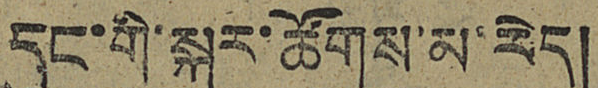དུང་གི་སྐར་ཚོགས་མ་རེད།
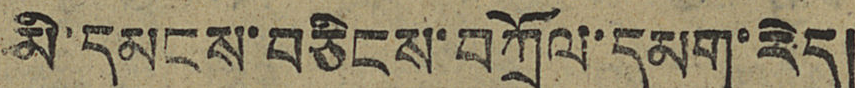མི་དམངས་བཅིངས་བཀྲོལ་དམག་རེད།
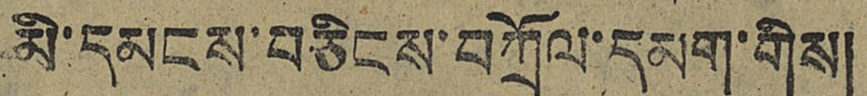མི་དམངས་བཅིངས་བཀྲོལ་དམག་གིས།
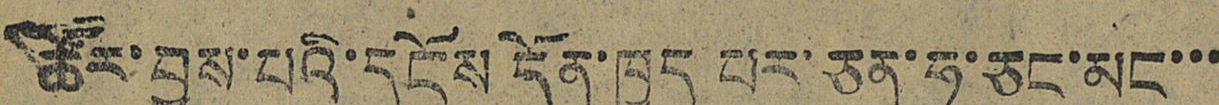ཚོར་བྱས་པའི་དངོས དོན་ཁྱད པར་ཅན་ཧ་ཅང་མང་་་
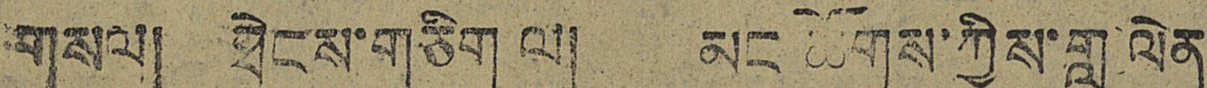གསལ། ཐེངས་གཅིག ལ། མང ཚོགས་ཀྱིས་གླུ ལེན
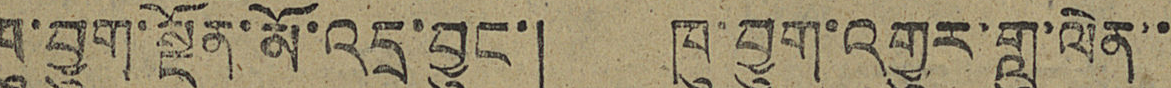ཁུ་བྱུག་སྔོན་མོ་འདྲ་བྱུང་། ཁུ་བྱུག་འགྱུར་གླུ་ལེན་་
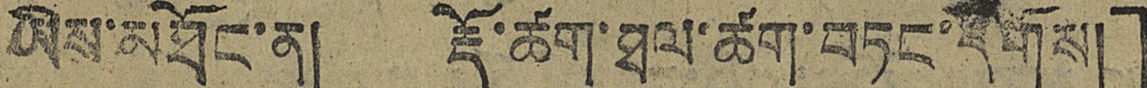ཡིས་མཐོང་ན། རྡོ་ཚག་ཐལ་ཚག་བཏང་དགོས།」
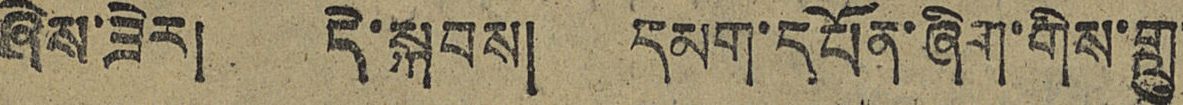ཞེས་ཟེར། དེ་སྐབས། དམག་དཔོན་ཞིག་གིས་གླུ་
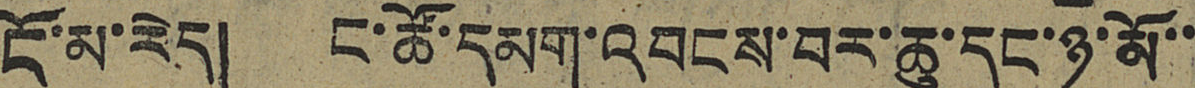ངོ་མ་རེད། ང་ཚོ་དམག་འབངས་བར་ཆུ་དང་ཉ་མོ་་
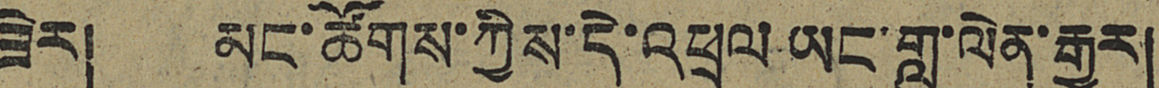ཟེར། མང་ཚོགས་ཀྱིས་དེ་འཕྲལ ཡང་གླུ་ལེན་རྒྱུར།
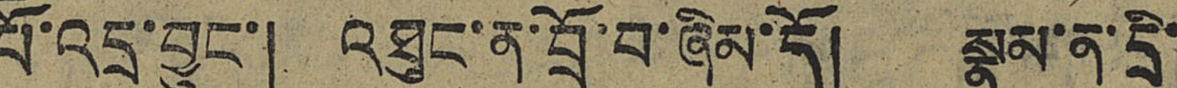པོ་འདྲ་བྱུང་། འཐུང་ན་བྲོ་བ་ཞིམ་དོ། སྣུམ་ན་དྲི་
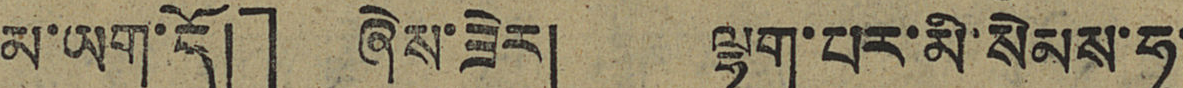མ་ཡག་དོ།」 ཞེས་ཟེར། ལྷག་པར་མི་སེམས་ཧ་
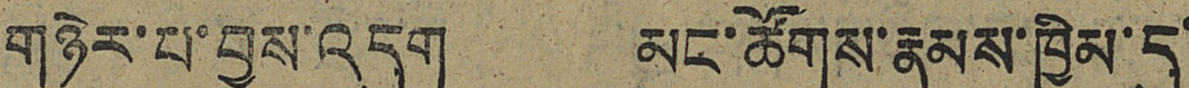གཉེར་པ་བྱས་འདུག མང་ཚོགས་རྣམས་ཁྱིམ་དུ་
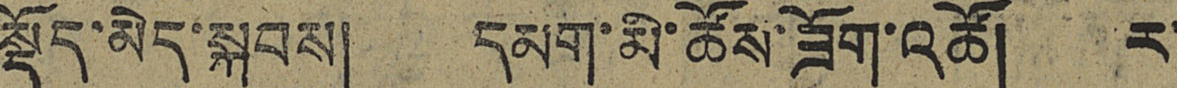སྡོད་མེད་སྐབས། དམག་མི་ཚོས་ཟོག་འཚོ། ར་
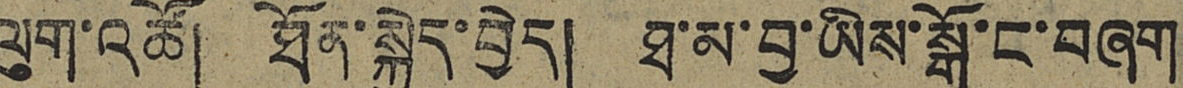ལུག་འཚོ། ཐོན་སྐྱེད་བྱེད། ཐ་མ་བྱ་ཡིས་སྒོ་ང་བཞག
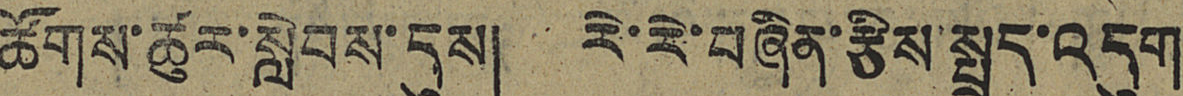ཚོགས་ཚུར་སླེབས་དུས། རེ་རེ་བཞིན་རྩིས་སྤྲད་འདུག
